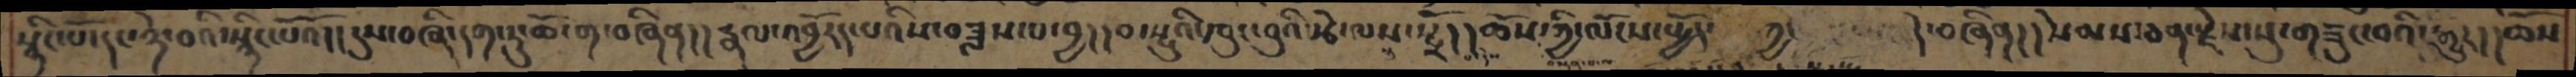སྙིང་པོ་དང་ཉེ་བའི་སྙིང་པོའོ།། དུས་བཞི་དག་ཏུ་ཆོ་ག་བཞིན།། རྣལ་འབྱོརད་པའིས་བཟླས་པ་བྱ།། བ་སྤུའི་ཁུང་བུའི་རྩེ་ལས་སྤྲོ།། ཆོས་ཀྱི་ལོངས་སྤྱོད་ ཀྱང   དེ་བཞིན།།སེམས་ཅན་རྗེས་སུ་གཟུང་བའི་རྒྱུར།། ཆོས
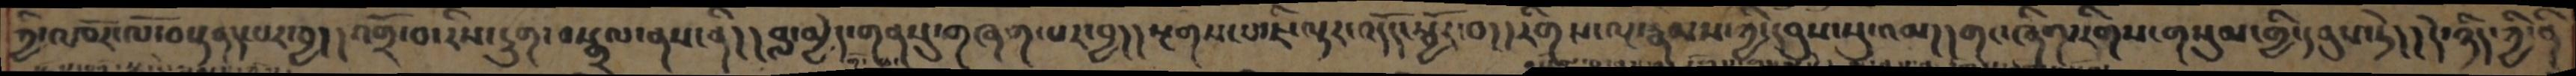ཀྱི་འཁོར་ལོ་བསྟནད་པར་བྱ།། འགྲོ་བ་རིས་དྲུག་བསྒྲལ་ནས་ནི།། བླ་མྱེད་གནསུ་གཞག་པར་བྱ།། སྔགས་པ་ཇི་ལྟར་འདོད་སྦྱོར་བ།། རིགས་ལྔ་རྣམས་ཀྱི་དབུས་སུ་འམ།། གང་ཞིག་རིགས་གསུམ་གྱི་དབུས་ཏེ།། དེ་ཉིད་ཀྱི་ནི
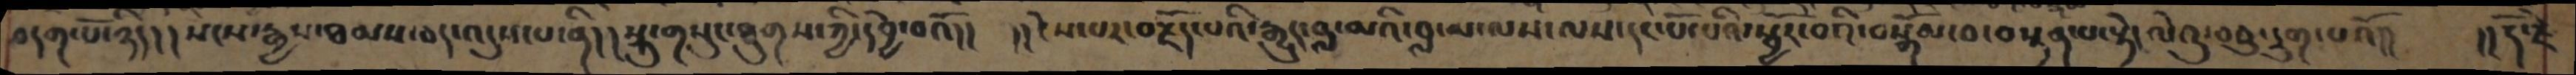བདག་པོ་ཉིད།། སངས་རྒྱས་ཐམས་ཅད་འདུས་པ་ནི་།། སྐུ་གསུང་ཐུགས་ཀྱི་དབྱེ་བའོ།། །།ངེས་པར་བརྗོད་པའི་རྒྱུད་བླ་མའི་བླ་མ་ལས་ལས་དང་པོ་པའི་སྦྱོར་བའི་བསྒོམ་བ་བསྟན་པ་སྟེ་ལེའུ་བཅུ་དྲུག་པའོ།། །།རྡོ་རྗེ
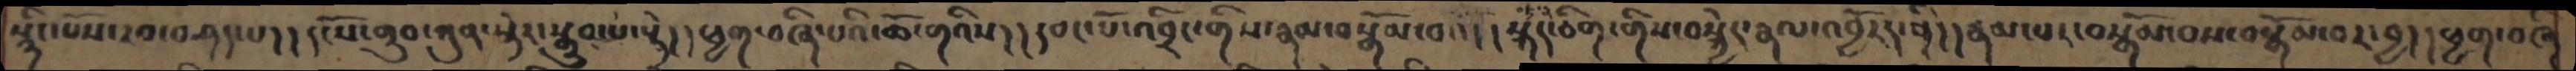སྙིང་པོས་རབ་བཤད་པ།། དངོས་གྲུབ་ཀུན་སྟེར་སྒྲུབ་པ་སྟེ།། ཕྱག་བཞི་པའི་ཆོ་གའིས།། དབང་པོ་འབྲིང་གིས་རྣམ་བསྒོམ་པའོ།། སྐད་ཅིག་གིས་བསྐྱེད་རྣལ་འབྱོརད་ནི།། རྣམ་པར་བསྒོམ་པས་བསྒོམ་བར་བྱ།། ཕྱག་བཞི་
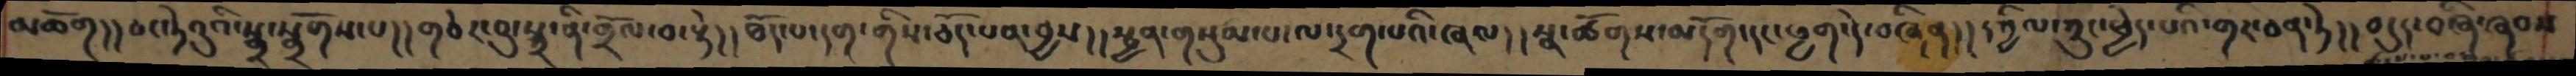མཆོག།།ཅང་ཏེའུའི་སྒྲ་སྒྲོགས་པ། །གཅེར་བུ་སྐྲ་ནི་གྲོལ་བ་སྟེ། །ཐོད་པ་དག་གིས་ཅོད་པན་བྱས། །སྤྱན་གསུམ་པ་ལ་དྲག་པའི་ཞལ། །སྣ་ཚོགས་མདོག་དང་ཕྱག་དེ་བཞིན། །དཀྱིལ་ཀྲུང་ཕྱེད་པའི་གར་ཅན་ཏེ། །བདུད་བཞི་ཞབས
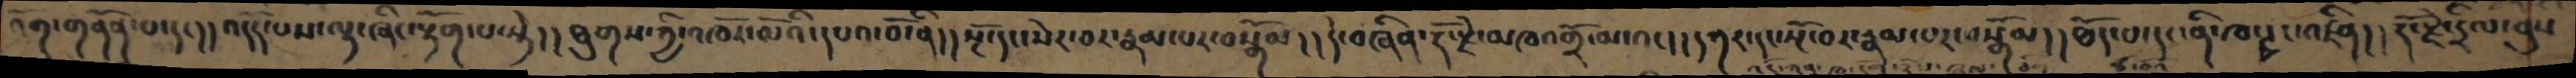འོག་གནོན་པ་དང། །འདོད་པས་ལྟ་ཞིང་རྟོག་པ་སྟེ། །ཐུགས་ཀྱི་འཁོར་ལོའི་དཔའ་བོ་ནི། །སྔོ་དང་སེར་བར་རྣམ་པར་བསྒོམ། །དེ་བཞིན་རྡོ་རྗེ་མཁའགྲོ་མ་འང། །དཀར་དང་སྔོ་བར་རྣམ་པར་བསྒོམ། །ཐོད་པ་དང་ནི་ཁ་ཏྭང་འཛིན། །རྡོ་རྗེ་དྲིལ་བུས་
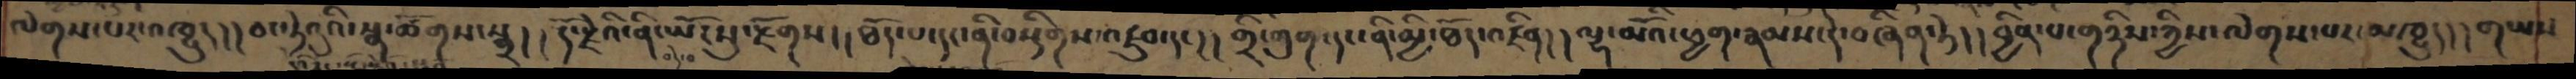ལེགས་པར་འཁྱུད།། ཅང་ཏེའུའི་སྣ་ཚོགས་སྒྲ།། རྡོ་རྗེའི་ནི་ཡོངསུ་རྫོགས།། ཐོད་པ་དང་ནི་སྡིགས་འཛུབ་དང་།། གྲི་གུག་དང་ནི་མྱི་ཐོད་འཛིན།། ལྷ་མོའི་ཕྱག་རྣམས་དེ་བཞིན་ཏེ།། བྱིན་པ་གཉིས་ཀྱིས་ལེགས་པར་མཁྱུད།། གཡས
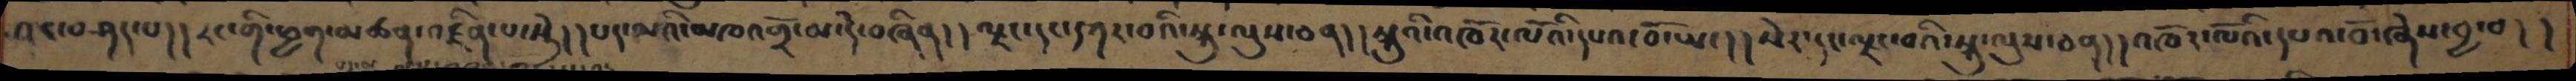བར་བཤད་པ།། རང་གི་ཕྱག་མཚན་འཛིན་པ་སྟེ།། པད་མའི་མཁའགྲོ་མ་དེ་བཞིན།། ལྗང་དང་དཀར་བའི་སྐུ་ལུས་ཅན།། སྐུའི་འཁོར་ལོའི་དཔའ་བོ་ཡང།། སེར་དང་ལྗང་བའི་སྐུ་ལུས་ཅན།། འཁོར་ལོའི་དཔའ་བོ་ཞེས་བྱ་བ།།
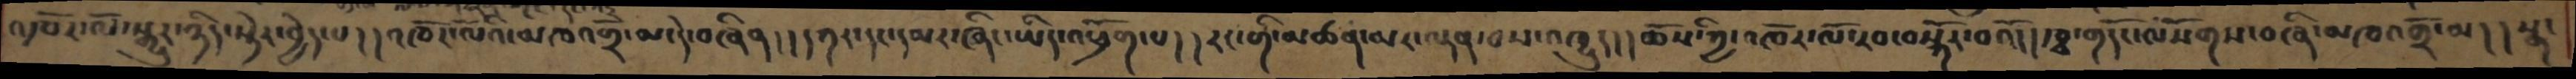འཁོར་ལོ་སྒྱུར་ཉིད་སྟེར་བྱེད་པ།། འཁོར་ལོའི་མཁའགྲོ་མ་དེ་བཞིན།། དཀར་དང་དམར་ཞིང་ཡིད་འཕྲོག་པ།། རང་གི་མཚན་མར་ལྡན་བས་འཁྱུད།། ཆོས་ཀྱི་འཁོར་ལོ་རབ་བསྐོར་བའོ། ཁྭ་གདོང་ལསོགས་བཞི་མཁའགྲོ་མ།། སྣ་
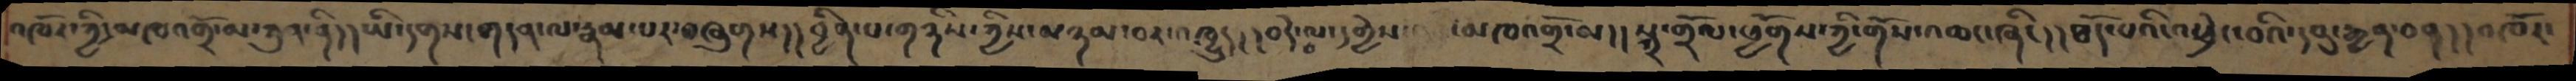འཁོར་ཀྱི་མཁའགྲོ་མ་ཀུན་ནི། །ཡི་དགས་གདན་ལ་རྣམ་པར་བཞུགས། །བྱིན་པ་གཉིས་ཀྱིས་མཉམ་བར་འཁྱུད། །བདེ་བ་ལ་དགྱེས་ མཁའགྲོ་མ། །སྐྲ་གྲོལ་ཕྱོགས་ཀྱི་གོས་འཆང་ཞིང། །ཐོད་པའི་འཕྲེང་བའི་དབུ་རྒྱན་ཅན། །འཁོར་
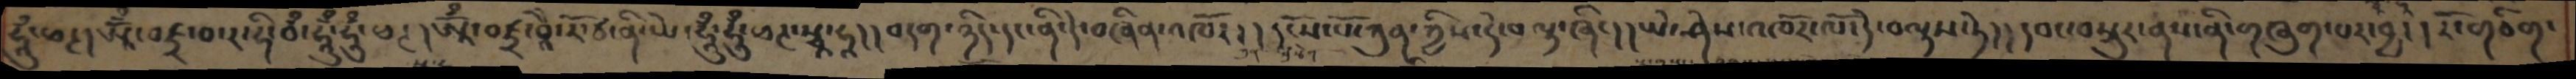ཧཱུྃ་ཕཊ། ཨཱོྃ་བཛྲ་བ་ར་ཧི་བྃ་ཧཱུྃ་ཧཱུྃ་ཕཊ། ཨཱོྃ་བཛྲ་བཱཻ་རོ་ཙ་ནི་ཡེ་ཧཱུྃ་ཧཱུྃ་ཕཊ་སྭཱ་ཧཱ། །བདག་ཉིད་དང་ནི་དེ་བཞིན་འཁོར། །དངོས་པོ་ཀུན་ཀྱིས་དེ་བལྟ་ཞིང། ཡེ་ཤེས་འཁོར་ལོ་དེ་བལྟས་ཏེ། །དབང་བསྐུར་ནས་ནི་གཞུག་པར་བྱ། །རོ་གཅིག་
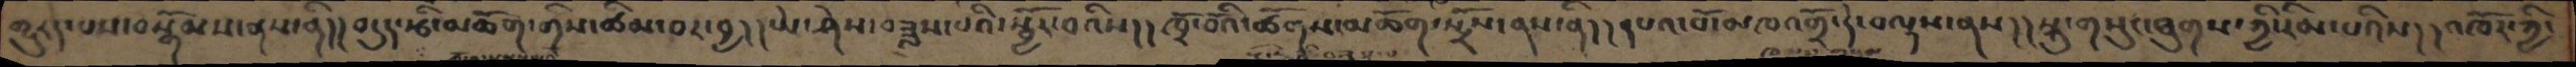གྱུརད་པས་བསྒོམས་ནས་ནི། །བདུད་རྩི་མཆོག་གིས་ཚིམ་བར་བྱ། །ཡེ་ཤེས་བཟླས་པའི་སྦྱོར་བའིས། །ཁྲོ་བོའི་ཚོགས་མཆོག་སྤྲོས་ནས་ནི། །དཔའ་པོ་མཁའགྲོ་དེ་བལྟས་ནས། །སྐུ་གསུང་ཐུགས་ཀྱི་རིམ་པའིས། །འཁོར་ཀྱི་
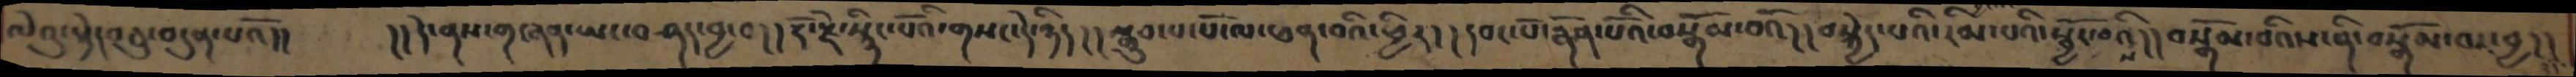ལེའུ་སྟེ་བཅུ་བདུན་པའོ།།   །།དེ་ནས་གཞན་ཡང་བཤད་བྱ་བ།།རྡོ་རྗེ་སྙིང་པོའི་གསང་དེ་ཉིད།།སྒྲུབ་པ་པོ་ལ་ཕན་པའི་ཕྱིར། །དབང་པོ་རྣོན་པོའི་བསྒོམ་བའོ། །བསྐྱེད་པའི་རིམ་པའི་སྦྱོར་བའིས།།བསྒོམ་བའིས་ནི་བསྒོམ་བར་བྱ།།
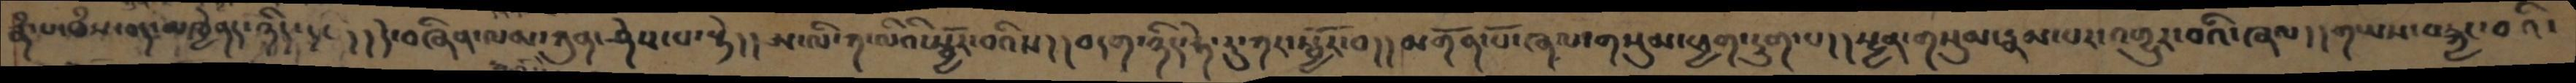རྣཾ་པ་ཐཾས་ཅད་མཁྱེནད་ཉིད་དང། །དེ་བཞིན་ལམ་ཀུན་ཤེས་པ་སྟེ། །ཨ་ལི་ཀ་ལིའི་སྦྱོར་བའིས། །བདག་ཉིད་ཧེ་རུ་ཀར་སྦྱོར་བ། །མགོན་པོ་ཞལ་གསུམ་ཕྱག་དྲུག་པ། །སྤྱན་གསུམ་རྣམ་པར་འགྱུར་བའི་ཞལ། །གཡས་བརྐྱང་བའི་
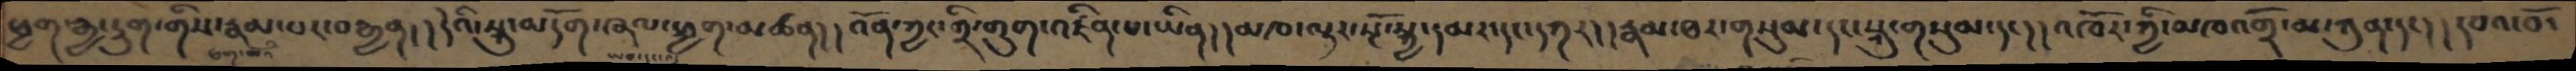ཕྱག་རྒྱ་དྲུག་གིས་རྣམ་པར་བརྒྱན། །དེའི་སྐུ་མདོག་ཞལ་ཕྱག་མཚན། །འོན་ཀྱང་གྲི་གུག་འཛིན་པ་ཡིན། །མཁ་ལྟར་སྔོ་སྐྱ་དམར་དང་དཀར། །རྣམ་ཐར་གསུམ་དང་སྐུ་གསུམ་དང་། །འཁོར་ཀྱི་མཁའགྲོ་མ་ཀུན་དང། །དཔའ་བོ་
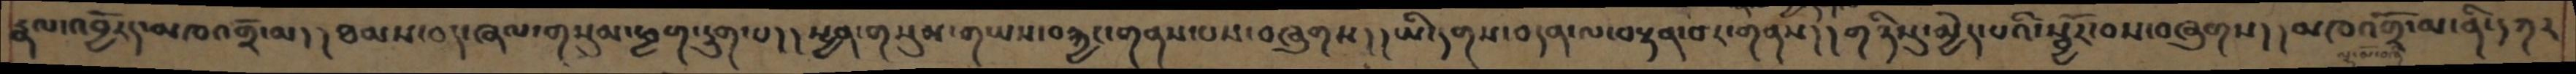རྣལ་འབྱོརད་མཁའགྲོ་མ། །ཐམས་ཅད་ཞལ་གསུམ་ཕྱག་དྲུག་པ། །སྤྱན་གསུམ་གཡས་བརྐྱང་གནས་པས་བཞུགས། །ཡི་དགས་བདན་ལ་བསྟན་བར་གནས། །གཉིསུ་མྱེད་པའི་སྦྱོར་བས་བཞུགས། །མཁའགྲོ་མ་ནི་དཀར་
